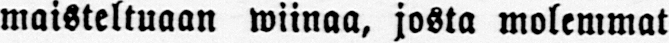maisteltuaan wiinaa, josta molemmat
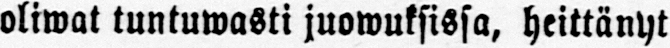oliwat tuntuwasti juowuksissa, heittänyt
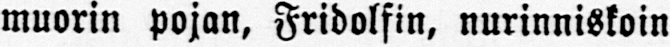muorin pojan, Fridolfin, nurinniskoin
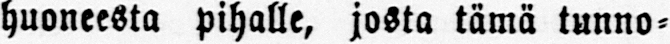huoneesta pihalle, josta tämä tunno-
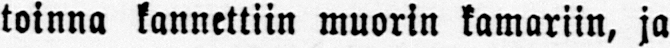toinna kannettiin muorin kamariin, ja
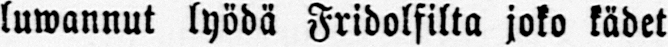luwannut lyödä Fridolfilta joko kädet
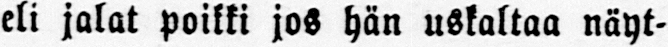eli jalat poikki jos hän uskaltaa näyt-
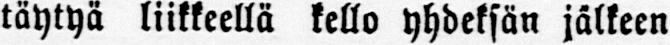täytyä liikkeellä kello yhdeksän jälkeen
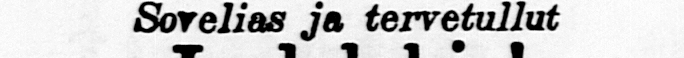Sovelias ja tervetullut
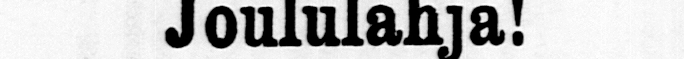Joululahja!
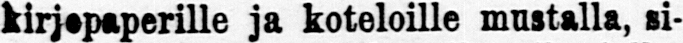kirjopaperille ja koteloille mustalla, si-
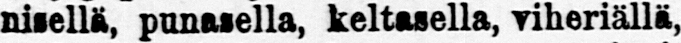nisellä, punasella, keltasella, viheriällä,
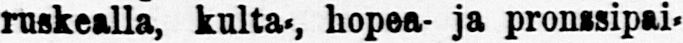ruskealla, kulta, hopea- ja pronssipai-
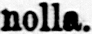nolla.
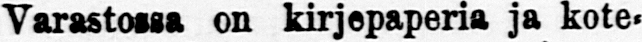Varastossa on kirjepaperia ja kote-
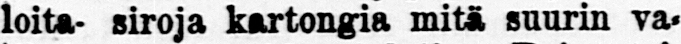loita- siroja kartongia mitä suurin va-
